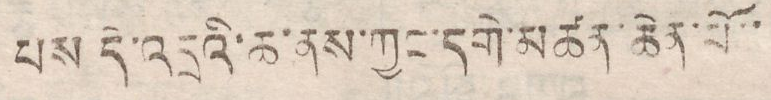པས་དེ་འདྲའི་ཆ་ནས་ཀྱང་དགེ་མཚན་ཆེན་པོ་་
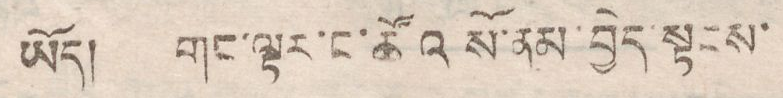ཡོད། གང་ལྟར་ང་ཚོའི སོ་ནམ་བྱེད་སྟངས་
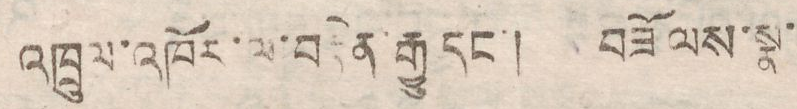འཁྲུལ་འཁོར་ལ་བརྟེན་རྒྱུ་དང་། བཟོ ལས་སྣ་
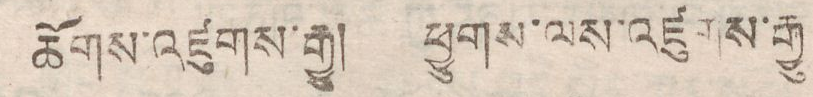ཆོགས་འཛུགས་རྒྱུ། ཕྱུགས་ལས་འཛུགས་རྒྱུ
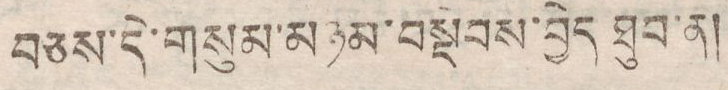བཅས་དེ་གསུམ་མཉམ་བསྡེབས་བྱེད་ཐུབ་ན།
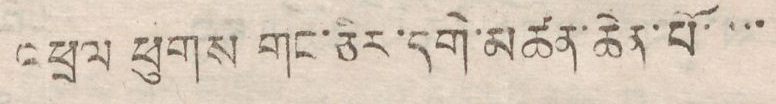འཕྲལ ཕུགས གང་ཅིར་དགེ་མཚན་ཆེན་པོ་་་་
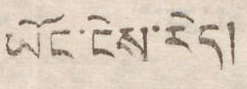ཡོང་ངེས་རེད།
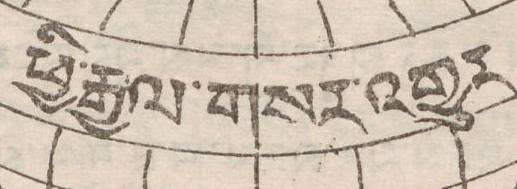ཕྱི་རྒྱལ་གསར་འགྱུར
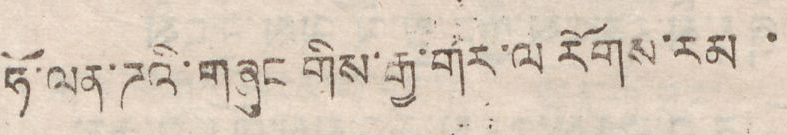ཧོ་ལན་ཌའི་གཞུང་གིས་རྒྱ་གར་ལ་རོགས་རམ ་
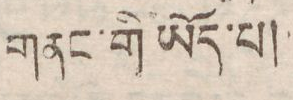གནང་གི ཡོད་པ།
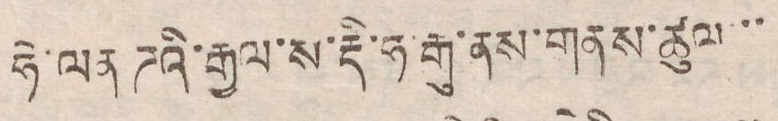ཧེ་ལན ཌའི་རྒྱལ་ས་རྡི་ཧ་རྒུ་ནས་གནས་ཚུལ་་་
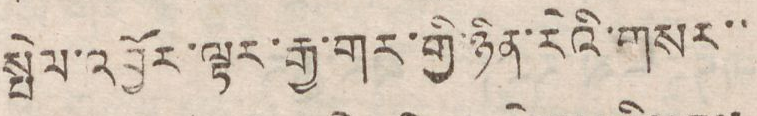སྤེལ་འབྱོར་ལྟར་རྒྱ་གར་གྱི་ཉིན་རེའི་གསར་་
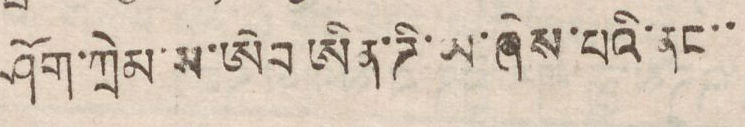ཤོག་ཀྲེམ་ས་ཨེབ་ཨིན་ཌི་ཡ་ཞེས་པའི་ནང་་
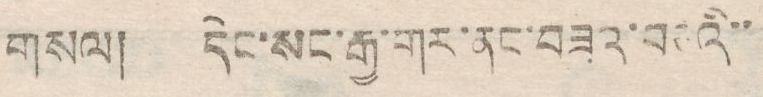གསལ། དེང་སང་རྒྱ་གར་ནང་བཟའ་བཅའི་་
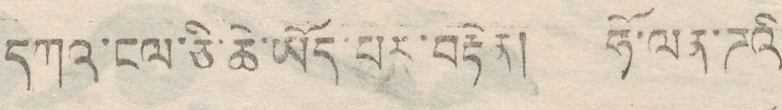དཀའ་ངལ་ཅི་ཆེ་ཡོད་པར་བརྟེན། ཧོ་ལན་ཌའི
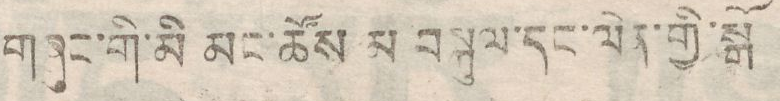གཞུང་གི་མི མང་ཚོས མ བསྐུལ་དང་ལེན་གྱི་སྒོ
